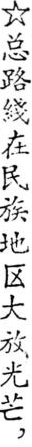☆总路綫在民族地区大放光芒，
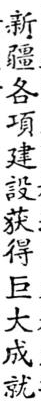新疆各項建設获得巨大成就
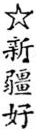☆新疆好
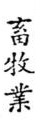畜牧業
